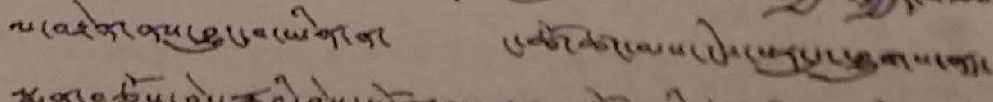ལ་བརྟེན་ནས་བྱུང་བ་ཡིན་ན་ ང་ཚོ་ཚང་མས་ངེས་པར་དུ་ཕྱུགས་ནད་
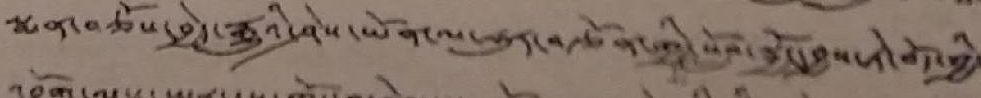སྨན་བཅོས་བྱེད་རྒྱུའི་ཤེས་ཡོན་ལ་ཧུར་བརྩོན་གྱི་སློབ་སྦྱོང་བྱས་ཏེ་བོད་ཀྱི་
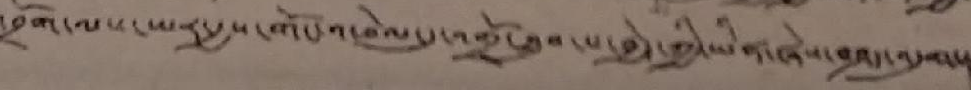འབྲོག་ལས་ཡར་རྒྱས་གོང་འཕེལ་དུ་འགྲོ་ཐུབ་པ་བྱེད་ཀྱི་ཡིན་ཞེས་བཤད་འདུག་།
